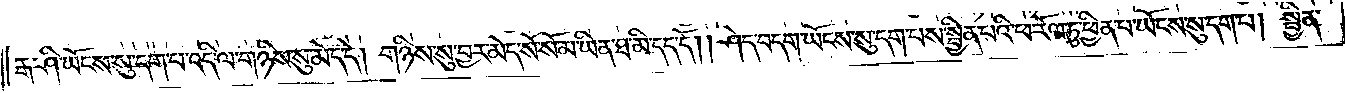རྒ་ཤི་ཡོངས་སུ་དག་པ་འདི་ལ་གཉིས་སུ་མེད་དེ། གཉིས་སུ་བྱར་མེད་སོ་སོ་མ་ཡིན་ཐ་མི་དད་དོ། །ཤེད་བདག་ཡོངས་སུ་དག་པས་སྦྱིན་པའི་ཕ་རོལ་ཏུ་ཕྱིན་པ་ཡོངས་སུ་དག་པ། སྦྱིན་
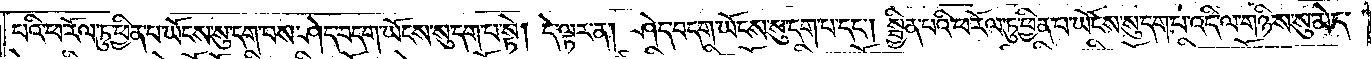པའི་ཕ་རོལ་ཏུ་ཕྱིན་པ་ཡོངས་སུ་དག་པས་ཤེད་བདག་ཡོངས་སུ་དག་པ་སྟེ། དེ་ལྟར་ན། ཤེད་བདག་ཡོངས་སུ་དག་པ་དང༌། སྦྱིན་པའི་ཕ་རོལ་ཏུ་ཕྱིན་པ་ཡོངས་སུ་དག་པ་འདི་ལ་གཉིས་སུ་མེད་
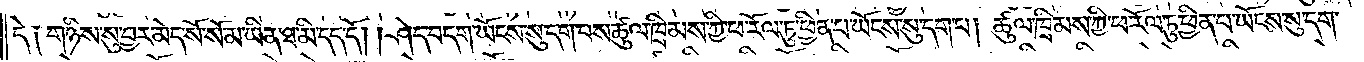དེ། གཉིས་སུ་བྱར་མེད་སོ་སོ་མ་ཡིན་ཐ་མི་དད་དོ། །ཤེད་བདག་ཡོངས་སུ་དག་པས་ཚུལ་ཁྲིམས་ཀྱི་ཕ་རོལ་ཏུ་ཕྱིན་པ་ཡོངས་སུ་དག་པ། ཚུལ་ཁྲིམས་ཀྱི་ཕ་རོལ་ཏུ་ཕྱིན་པ་ཡོངས་སུ་དག་
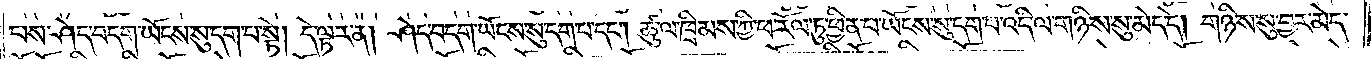པས་ཤེད་བདག་ཡོངས་སུ་དག་པ་སྟེ། དེ་ལྟར་ན། ཤེད་བདག་ཡོངས་སུ་དག་པ་དང༌། ཚུལ་ཁྲིམས་ཀྱི་ཕ་རོལ་ཏུ་ཕྱིན་པ་ཡོངས་སུ་དག་པ་འདི་ལ་གཉིས་སུ་མེད་དེ། གཉིས་སུ་བྱར་མེད་
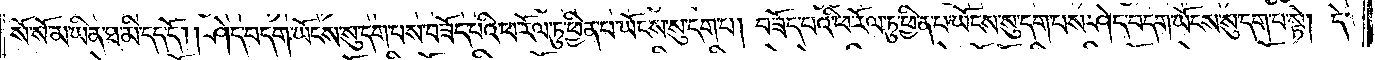སོ་སོ་མ་ཡིན་ཐ་མི་དད་དོ། །ཤེད་བདག་ཡོངས་སུ་དག་པས་བཟོད་པའི་ཕ་རོལ་ཏུ་ཕྱིན་པ་ཡོངས་སུ་དག་པ། བཟོད་པའི་ཕ་རོལ་ཏུ་ཕྱིན་པ་ཡོངས་སུ་དག་པས་ཤེད་བདག་ཡོངས་སུ་དག་པ་སྟེ། དེ་
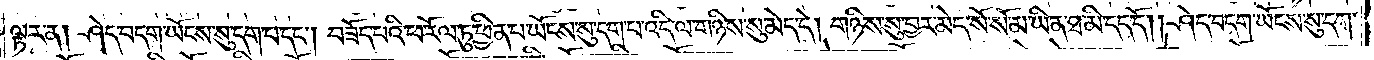ལྟར་ན། ཤེད་བདག་ཡོངས་སུ་དག་པ་དང༌། བཟོད་པའི་ཕ་རོལ་ཏུ་ཕྱིན་པ་ཡོངས་སུ་དག་པ་འདི་ལ་གཉིས་སུ་མེད་དེ། གཉིས་སུ་བྱར་མེད་སོ་སོ་མ་ཡིན་ཐ་མི་དད་དོ། །ཤེད་བདག་ཡོངས་སུ་དག་
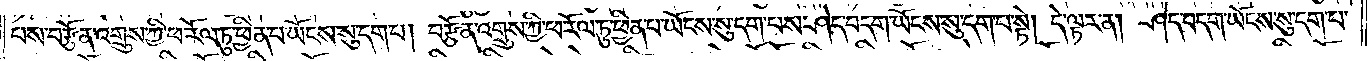པས་བརྩོན་འགྲུས་ཀྱི་ཕ་རོལ་ཏུ་ཕྱིན་པ་ཡོངས་སུ་དག་པ། བརྩོན་འགྲུས་ཀྱི་ཕ་རོལ་ཏུ་ཕྱིན་པ་ཡོངས་སུ་དག་པས་ཤེད་བདག་ཡོངས་སུ་དག་པ་སྟེ། དེ་ལྟར་ན། ཤེད་བདག་ཡོངས་སུ་དག་པ་
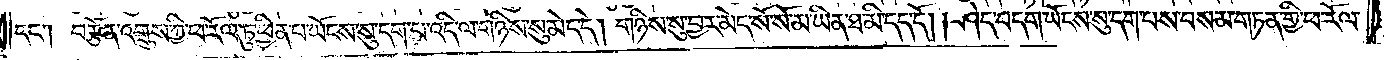དང༌། བརྩོན་འགྲུས་ཀྱི་ཕ་རོལ་ཏུ་ཕྱིན་པ་ཡོངས་སུ་དག་པ་འདི་ལ་གཉིས་སུ་མེད་དེ། གཉིས་སུ་བྱར་མེད་སོ་སོ་མ་ཡིན་ཐ་མི་དད་དོ། །ཤེད་བདག་ཡོངས་སུ་དག་པས་བསམ་གཏན་གྱི་ཕ་རོལ་
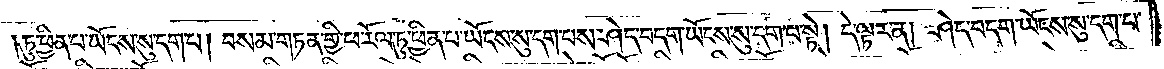ཏུ་ཕྱིན་པ་ཡོངས་སུ་དག་པ། བསམ་གཏན་གྱི་ཕ་རོལ་ཏུ་ཕྱིན་པ་ཡོངས་སུ་དག་པས་ཤེད་བདག་ཡོངས་སུ་དག་པ་སྟེ། དེ་ལྟར་ན། ཤེད་བདག་ཡོངས་སུ་དག་པ་
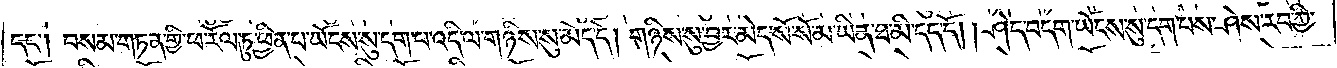དང༌། བསམ་གཏན་གྱི་ཕ་རོལ་ཏུ་ཕྱིན་པ་ཡོངས་སུ་དག་པ་འདི་ལ་གཉིས་སུ་མེད་དེ། གཉིས་སུ་བྱར་མེད་སོ་སོ་མ་ཡིན་ཐ་མི་དད་དོ། །ཤེད་བདག་ཡོངས་སུ་དག་པས་ཤེས་རབ་ཀྱི་
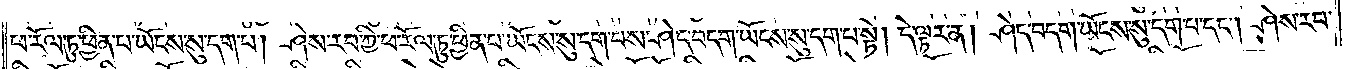ཕ་རོལ་ཏུ་ཕྱིན་པ་ཡོངས་སུ་དག་པ། ཤེས་རབ་ཀྱི་ཕ་རོལ་ཏུ་ཕྱིན་པ་ཡོངས་སུ་དག་པས་ཤེད་བདག་ཡོངས་སུ་དག་པ་སྟེ། དེ་ལྟར་ན། ཤེད་བདག་ཡོངས་སུ་དག་པ་དང༌། ཤེས་རབ་
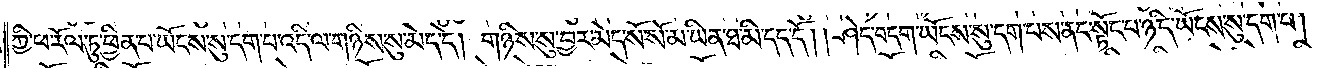ཀྱི་ཕ་རོལ་ཏུ་ཕྱིན་པ་ཡོངས་སུ་དག་པ་འདི་ལ་གཉིས་སུ་མེད་དེ། གཉིས་སུ་བྱར་མེད་སོ་སོ་མ་ཡིན་ཐ་མི་དད་དོ། །ཤེད་བདག་ཡོངས་སུ་དག་པས་ནང་སྟོང་པ་ཉིད་ཡོངས་སུ་དག་པ།
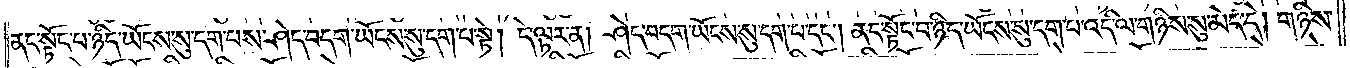ནང་སྟོང་པ་ཉིད་ཡོངས་སུ་དག་པས་ཤེད་བདག་ཡོངས་སུ་དག་པ་སྟེ། དེ་ལྟར་ན། ཤེད་བདག་ཡོངས་སུ་དག་པ་དང༌། ནང་སྟོང་པ་ཉིད་ཡོངས་སུ་དག་པ་འདི་ལ་གཉིས་སུ་མེད་དེ། གཉིས་
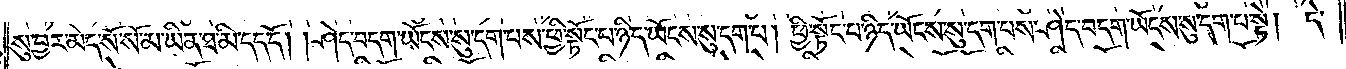སུ་བྱར་མེད་སོ་སོ་མ་ཡིན་ཐ་མི་དད་དོ། །ཤེད་བདག་ཡོངས་སུ་དག་པས་ཕྱི་སྟོང་པ་ཉིད་ཡོངས་སུ་དག་པ། ཕྱི་སྟོང་པ་ཉིད་ཡོངས་སུ་དག་པས་ཤེད་བདག་ཡོངས་སུ་དག་པ་སྟེ། དེ་
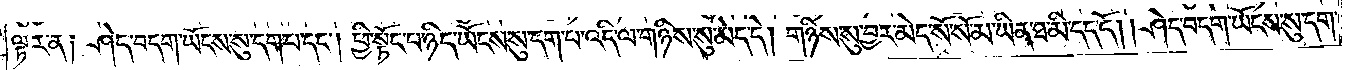ལྟར་ན། ཤེད་བདག་ཡོངས་སུ་དག་པ་དང༌། ཕྱི་སྟོང་པ་ཉིད་ཡོངས་སུ་དག་པ་འདི་ལ་གཉིས་སུ་མེད་དེ། གཉིས་སུ་བྱར་མེད་སོ་སོ་མ་ཡིན་ཐ་མི་དད་དོ། །ཤེད་བདག་ཡོངས་སུ་དག་
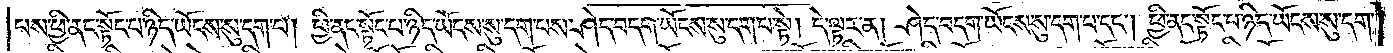པས་ཕྱི་ནང་སྟོང་པ་ཉིད་ཡོངས་སུ་དག་པ། ཕྱི་ནང་སྟོང་པ་ཉིད་ཡོངས་སུ་དག་པས་ཤེད་བདག་ཡོངས་སུ་དག་པ་སྟེ། དེ་ལྟར་ན། ཤེས་བདག་ཡོངས་སུ་དག་པ་དང༌། ཕྱི་ནང་སྟོང་པ་ཉིད་ཡོངས་སུ་དག་
